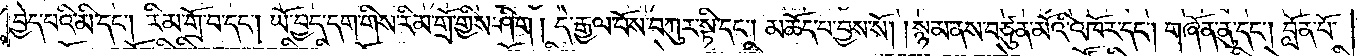བྱེད་པའི་མི་དང༌། རིམ་གྲོ་བ་དང༌། ཡོ་བྱད་དག་གིས་རིམ་གྲོ་གྱིས་ཤིག །དེ་རྒྱལ་པོས་བཀུར་སྟི་དང༌། མཆོད་པ་བྱས་སོ། །སྙམ་ནས་བཙུན་མོའི་འཁོར་དང༌། གཞོན་ནུ་དང༌། བློན་པོ་
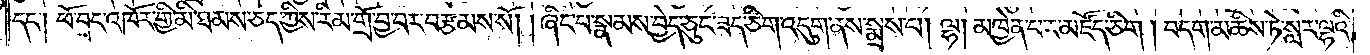དང༌། ཕོ་བྲང་འཁོར་གྱི་མི་ཐམས་ཅད་ཀྱིས་རིམ་གྲོ་བྱ་བར་བརྩམས་སོ། །ཞིང་པ་སྣམས་བྱེད་ཅུང་ཟད་ཅིག་འདུག་ནས་སྨྲས་པ། ལྷ། མཁྱེན་པར་མཛོད་ཅིག །བདག་མཆིས་ཏེ་སླར་ལྷའི་
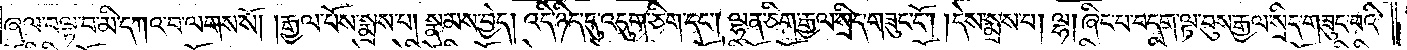ཞལ་བལྟ་བ་མི་དཀའ་བ་ལགས་སོ། །རྒྱལ་པོས་སྨྲས་པ། སྣམས་བྱེད། འདི་ཉིད་དུ་འདུག་ཅིག་དང༌། ལྷན་ཅིག་རྒྱལ་སྲིད་གཟུང་ངོ༌། །དེས་སྨྲས་པ། ལྷ། ཞིང་པ་བདག་ལྟ་བུས་རྒྱལ་སྲིད་གཟུང་བའི་
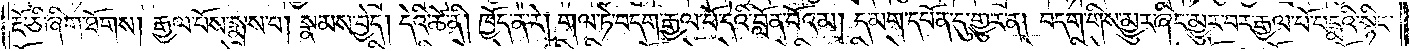རྔོ་ཅི་ཞིག་ཐོགས། རྒྱལ་པོས་སྨྲས་པ། སྣམས་བྱེད། དེའི་ཚེ་ནི། ཁྱོད་ན་རེ། གལ་ཏེ་བདག་རྒྱལ་པོ་དེའི་བློན་པོའམ། དམག་དཔོན་དུ་གྱུར་ན། བདག་གིས་མྱུར་ཞིང་མྱུར་བར་རྒྱལ་པོ་པདྨའི་སྙིང་
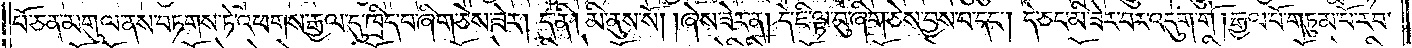པོ་ཅན་མགུལ་ནས་བཏགས་ཏེ་འཕགས་རྒྱལ་དུ་ཁྲིད་པ་ཞིག་ཅེས་ཟེར། ད་ནི། མི་ནུས་སོ། །ཞེས་ཟེར་ན། དེ་ཇི་ལྟ་བུ་ཞིག་ཅེས་བྱས་པ་དང༌། དེ་ཅང་མི་ཟེར་བར་འདུག་གོ །རྒྱལ་པོ་གཏུམ་པོ་རབ་
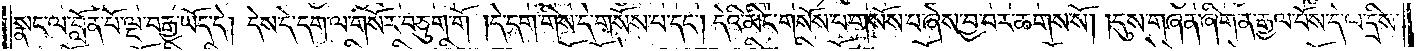སྣང་ལ་བློན་པོ་ལྔ་བརྒྱ་ཡོད་དེ། དེས་དེ་དག་ལ་གསོར་བཅུག་གོ །དེ་དག་གིས་དེ་གསོས་པ་དང༌། དེའི་མིང་གསོས་པ་གསོས་པ་ཞེས་བྱ་བར་ཆགས་སོ། །དུས་གཞན་ཞིག་ན་རྒྱལ་པོས་དེ་ལ་དྲིས་
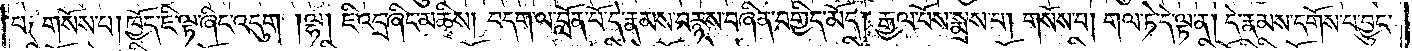པ༑ གསོས་པ། ཁྱོད་ཇི་ལྟ་ཞིང་འདུག །ལྷ། ཇི་འདྲ་ཞིང་མཆིས། བདག་ལ་བློན་པོ་དེ་རྣམས་བརྙས་བཞིན་བགྱིད་མོད། རྒྱལ་པོས་སྨྲས་པ། གསོས་པ། གལ་ཏེ་དེ་ལྟ་ན། དེ་རྣམས་དགོས་པ་བྱུང་
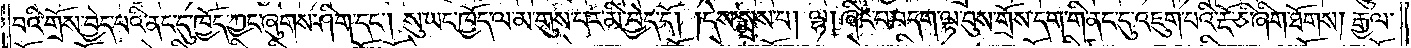བའི་གྲོས་བྱེད་པའི་ནང་དུ་ཁྱོད་ཀྱང་ཞུགས་ཤིག་དང༌། སུ་ཡང་ཁྱོད་ལ་མ་གུས་པར་མི་བྱེད་དོ། །དེས་སྨྲས་པ། ལྷ། ཞིང་པ་བདག་ལྟ་བུས་གྲོས་དག་གི་ནང་དུ་འཇུག་པའི་རྡོ་ཅི་ཞིག་ཐོགས། རྒྱལ་
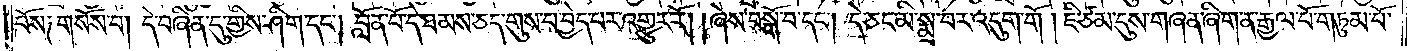པོས༑ གསོས་པ། དེ་བཞིན་དུ་གྱིས་ཤིག་དང༌། བློན་པོ་དེ་ཐམས་ཅད་གུས་པ་བྱེད་པར་འགྱུར་རོ། །ཞེས་བསྒོ་བ་དང༌། དེ་ཅང་མི་སྨྲ་བར་འདུག་གོ། ཇི་ཙམ་དུས་གཞན་ཞིག་ན་རྒྱལ་པོ་གཏུམ་པོ་
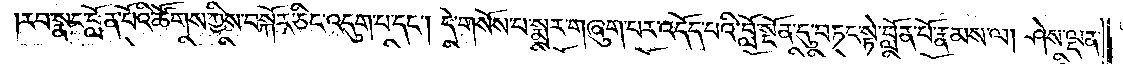རབ་སྣང་བློན་པོའི་ཚོགས་ཀྱིས་བསྐོར་ཅིང་འདུག་པ་དང༌། དེ་གསོས་པ་སྨྲར་གཞུག་པར་འདོད་པའི་བློ་སྔོན་དུ་བཏང་སྟེ་བློན་པོ་རྣམས་ལ། ཤེས་ལྡན་
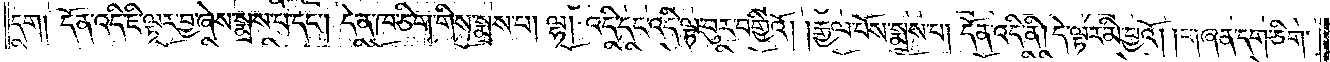དག །དོན་འདི་ཇི་ལྟར་བྱ་ཞེས་སྨྲས་པ་དང༌། དེ་ན་ཁ་ཅིག་གིས་སྨྲས་པ། ལྷ། འདི་དང་འདི་ལྟ་བུར་བགྱིའོ། །རྒྱལ་པོས་སྨྲས་པ། དོན་འདི་ནི། དེ་ལྟར་མི་བྱའོ། །གཞན་དག་ཅིག་
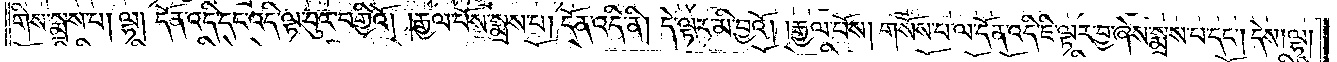གིས་སྨྲས་པ། ལྷ། དོན་འདི་དང་འདི་ལྟ་བུར་བགྱིའོ། །རྒྱལ་པོས་སྨྲས་པ། དོན་འདི་ནི། དེ་ལྟར་མི་བྱའོ། །རྒྱལ་པོས། གསོས་པ་ལ་དོན་འདི་ཇི་ལྟར་བྱ་ཞེས་སྨྲས་པ་དང༌། དེས། ལྷ།
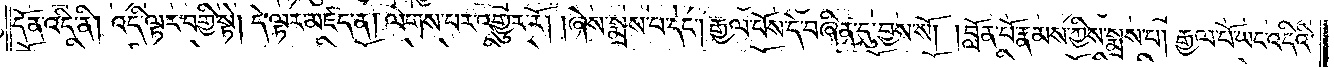དོན་འདི་ནི། འདི་ལྟར་བགྱི་སྟེ། དེ་ལྟར་མཛད་ན། ལེགས་པར་འགྱུར་རོ། །ཞེས་སྨྲས་པ་དང༌། རྒྱལ་པོས་དེ་བཞིན་དུ་བྱས་སོ། །བློན་པོ་རྣམས་ཀྱིས་སྨྲས་པ། རྒྱལ་པོ་ཡང་འདིའི་
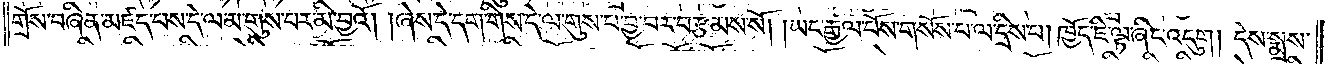གྲོས་བཞིན་མཛད་པས་དེ་ལ་མ་གུས་པར་མི་བྱའོ། །ཞེས་དེ་དག་གིས་དེ་ལ་གུས་པ་བྱ་བར་བརྩམས་སོ། །ཡང་རྒྱལ་པོས་གསོས་པ་ལ་དྲིས་པ། ཁྱོད་ཇི་ལྟ་ཞིང་འདུག །དེས་སྨྲས་
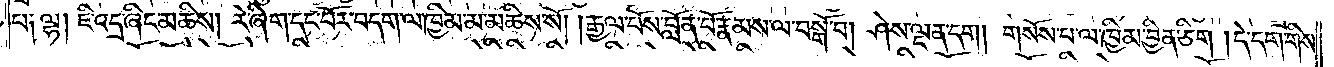པ༑ ལྷ། ཇི་འདྲ་ཞིང་མཆིས། རེ་ཞིག་དང་པོར་བདག་ལ་ཁྱིམ་མ་མཆིས་སོ། །རྒྱལ་པོས་བློན་པོ་རྣམས་ལ་བསྒོ་བ། ཤེས་ལྡན་དག །གསོས་པ་ལ་ཁྱིམ་བྱིན་ཅིག །དེ་དག་གིས་
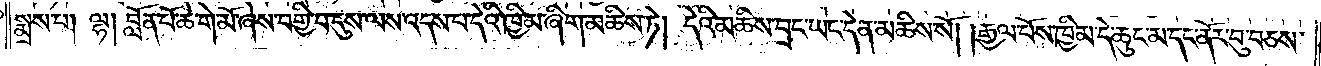སྨྲས་པ། ལྷ། བློན་པོ་ཆེ་གེ་མོ་ཞེས་བགྱི་བ་དུས་ལས་འདས་པ་དེའི་ཁྱིམ་ཞིག་མཆིས་ཏེ། དེའི་མཆིས་བྲང་ཡང་དེ་ན་མཆིས་སོ། །རྒྱལ་པོས་ཁྱིམ་དེ་ཆུང་མ་དང་ནོར་བུ་བཅས་
